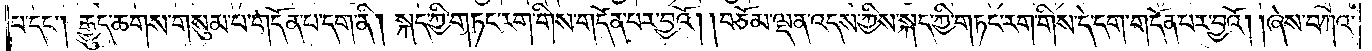པ་དང༌། རྒྱུད་ཆགས་གསུམ་པ་གདོན་པ་དག་ནི། སྐད་ཀྱི་གཏང་རག་གིས་གདོན་པར་བྱའོ། །བཅོམ་ལྡན་འདས་ཀྱིས་སྐད་ཀྱི་གཏང་རག་གིས་དེ་དག་གདོན་པར་བྱའོ། །ཞེས་བཀའ་
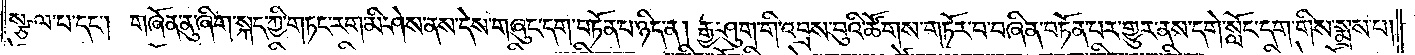སྩལ་པ་དང༌། གཞོན་ནུ་ཞིག་སྐད་ཀྱི་གཏང་རག་མི་ཤེས་ནས་དེས་གཞུང་དག་བཏོན་པ་ཉིད་ན། རྒྱ་ཤུག་གི་འབྲས་བུའི་ཚོགས་གཏོར་བ་བཞིན་བཏོན་པར་གྱུར་ནས་དགེ་སློང་དག་གིས་སྨྲས་པ།
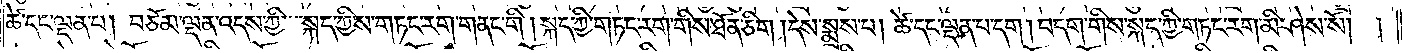ཚེ་དང་ལྡན་པ། བཅོམ་ལྡན་འདས་ཀྱི་སྐད་ཀྱིས་གཏང་རག་གནང་གི། སྐད་ཀྱི་གཏང་རག་གིས་ཐོན་ཅིག །དེས་སྨྲས་པ། ཚེ་དང་ལྡན་པ་དག །བདག་གིས་སྐད་ཀྱི་གཏང་རག་མི་ཤེས་སོ། །
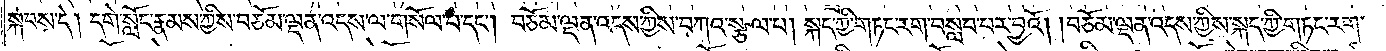སྐབས་དེ། དགེ་སློང་རྣམས་ཀྱིས་བཅོམ་ལྡན་འདས་ལ་གསོལ་བ་དང༌། བཅོམ་ལྡན་འདས་ཀྱིས་བཀའ་སྩལ་པ། སྐད་ཀྱི་གཏང་རག་བསླབ་པར་བྱའོ། །བཅོམ་ལྡན་འདས་ཀྱིས་སྐད་ཀྱི་གཏང་རག་
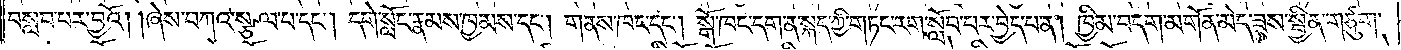བསླབ་པར་བྱའོ། །ཞེས་བཀའ་སྩལ་པ་དང༌། དགེ་སློང་རྣམས་ཁྱམས་དང༌། གནས་ཁང་དང༌། སྒོ་ཁང་དག་ན་སྐད་ཀྱི་གཏང་རག་སློབ་པར་བྱེད་པ་ན། ཁྱིམ་བདག་མགོན་མེད་ཟས་སྦྱིན་གཙུག་
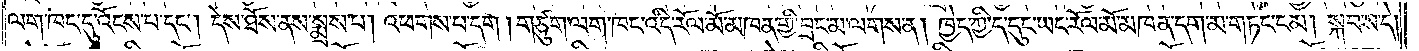ལག་ཁང་དུ་འོངས་པ་དང༌། དེས་ཐོས་ནས་སྨྲས་པ། འཕགས་པ་དག །གཙུག་ལག་ཁང་འདི་རོལ་མོ་མཁན་གྱི་བྲང་མ་ལགས་ན། ཁྱེད་ཀྱི་ད་དུང་ཡང་རོལ་མོ་མཁན་དག་མ་གཏང་ངམ། སྐབས་དེ་
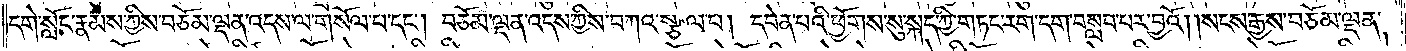དགེ་སློང་རྣམས་ཀྱིས་བཅོམ་ལྡན་འདས་ལ་གསོལ་བ་དང༌། བཅོམ་ལྡན་འདས་ཀྱིས་བཀའ་སྩལ་པ། དབེན་པའི་ཕྱོགས་སུ་སྐད་ཀྱི་གཏང་རག་དག་བསླབ་པར་བྱའོ། །སངས་རྒྱས་བཅོམ་ལྡན་
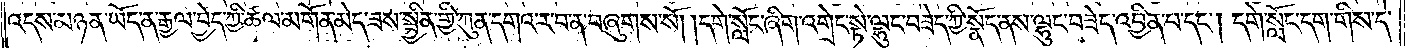འདས་མཉན་ཡོད་ན་རྒྱལ་བྱེད་ཀྱི་ཚལ་མགོན་མེད་ཟས་སྦྱིན་གྱི་ཀུན་དགའ་ར་བ་ན་བཞུགས་སོ། །དགེ་སློང་ཞིག་འགྲེང་སྟེ་ལྷུང་བཟེད་ཀྱི་སྣོད་ནས་ལྷུང་བཟེད་འབྱིན་པ་དང༌། དགེ་སློང་དག་གིས་དེ་
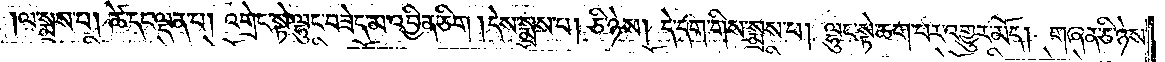ལ་སྨྲས་པ། ཚེ་དང་ལྡན་པ། འགྲེང་སྟེ་ལྷུང་བཟེད་མ་འབྱིན་ཅིག །དེས་སྨྲས་པ། ཅི་ཉེས། དེ་དག་གིས་སྨྲས་པ། ལྷུང་སྟེ་ཆག་པར་འགྱུར་མོད། གཞན་ཅི་ཉེས་
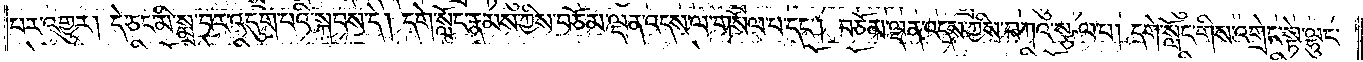པར་འགྱུར། དེ་ཅང་མི་སྨྲ་བར་འདུག་པའི་སྐབས་དེ། དགེ་སློང་རྣམས་ཀྱིས་བཅོམ་ལྡན་འདས་ལ་གསོལ་བ་དང༌། བཅོམ་ལྡན་འདས་ཀྱིས་བཀའ་སྩལ་པ། དགེ་སློང་གིས་འགྲེང་སྟེ་ལྷུང་
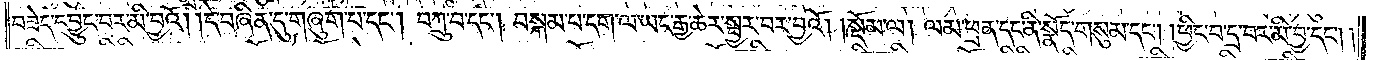བཟེད་དབྱུང་བར་མི་བྱའོ། །དེ་བཞིན་དུ་གཞུག་པ་དང༌། བཀྲུ་བ་དང༌། བསྐམ་པ་དག་ལ་ཡང་རྒྱ་ཆེར་སྦྱར་བར་བྱའོ།    །སྡོམ་ལ། ལམ་ཕྲན་དང་ནི་སྣོད་གསུམ་དང༌། །ཕྱིང་བ་དྲ་བར་མི་བྱ་དང༌། །
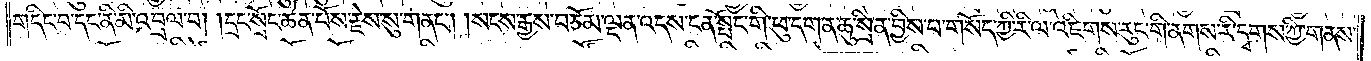གདིང་བ་དང་ནི་མི་འབྲལ་བ། །དྲང་སྲོང་ཆེན་པོས་རྗེས་སུ་གནང༌། །སངས་རྒྱས་བཅོམ་ལྡན་འདས་ངན་སྤོང་གི་ཕུ་དག་ན་ཆུ་སྲིན་བྱིས་པ་གསོད་ཀྱི་རི་ལ་འཇིགས་རུང་གི་ནགས་རི་དྭགས་ཀྱི་གནས་
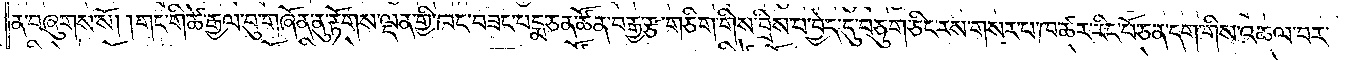ན་བཞུགས་སོ། །གང་གི་ཚེ་རྒྱལ་བུ་གཞོན་ནུ་རྟོགས་ལྡན་གྱི་ཁང་བཟང་པདྨ་ཅན་ཚོན་བརྒྱ་རྩ་གཅིག་གིས་བྲིས་པ་བྱེད་དུ་བཅུག་ཅིང་རས་གསར་པ་ཁ་ཚར་རིང་པོ་ཅན་དག་གིས་འཆལ་བར་
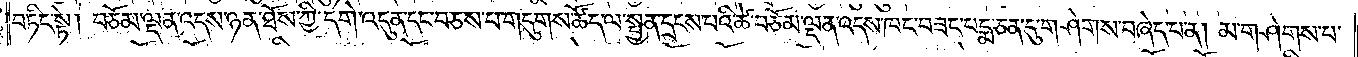བཏིང་སྟེ། བཅོམ་ལྡན་འདས་ཉན་ཐོས་ཀྱི་དགེ་འདུན་དང་བཅས་པ་གདུགས་ཚོད་ལ་སྤྱན་དྲངས་པའི་ཚེ་བཅོམ་ལྡན་འདས་ཁང་བཟང་པདྨ་ཅན་དུ་གཤེགས་བཞེད་པ་ན། མ་གཤེགས་པ་
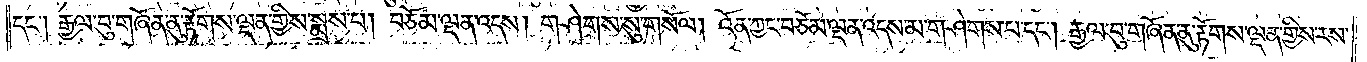དང༌། རྒྱལ་བུ་གཞོན་ནུ་རྟོགས་ལྡན་གྱིས་སྨྲས་པ། བཅོམ་ལྡན་འདས། གཤེགས་སུ་གསོལ། འོན་ཀྱང་བཅོམ་ལྡན་འདས་མ་གཤེགས་པ་དང༌། རྒྱལ་བུ་གཞོན་ནུ་རྟོགས་ལྡན་གྱིས་རས་
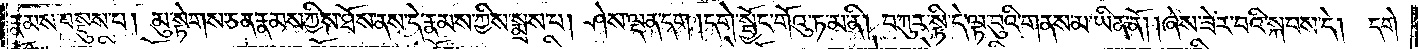རྣམས་བསྡུས་པ། མུ་སྟེགས་ཅན་རྣམས་ཀྱིས་ཐོས་ནས་དེ་རྣམས་ཀྱིས་སྨྲས་པ། ཤེས་ལྡན་དག །དགེ་སྦྱོང་གོའུ་ཏ་མ་ནི། བཀུར་སྟི་དེ་ལྟ་བཱི་གནས་མ་ཡིན་ནོ། །ཞེས་ཟེར་བའི་སྐབས་དེ། དགེ་
